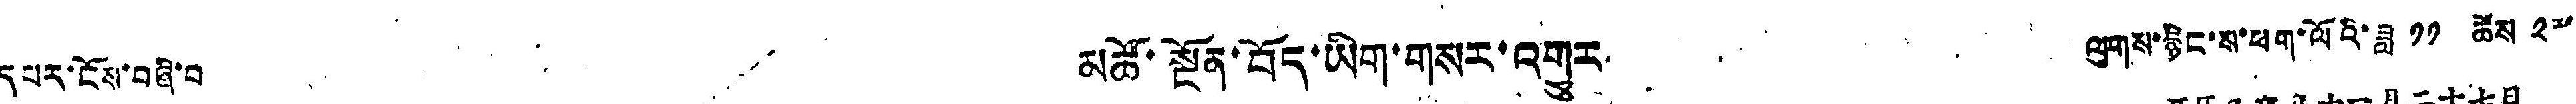དཔར་ངོས་བཞི་བ མཚོ་སྔོན་བོད་ཡིག་གསར་འགྱུར ལུགས་རྙིང་ས་ཕག་ལོའི་ཟླ ༡༡ ཚེས ༢༧
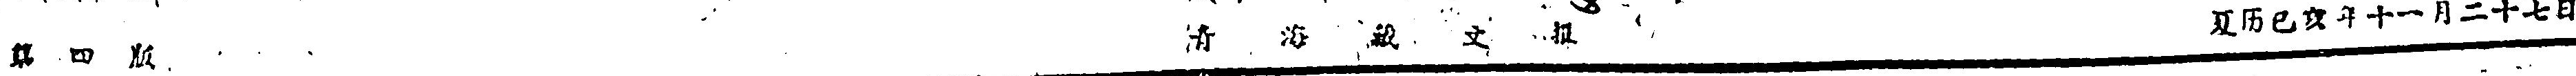第 四 版 青 海 藏 文 报 夏历己亥年十一月二十七日
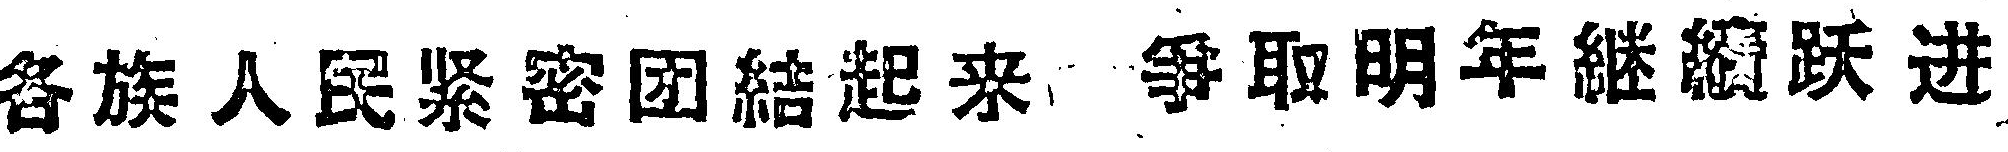各族人民緊密团結起来，爭取明年継續跃进
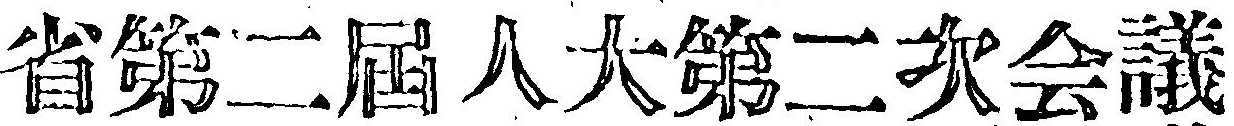省第二屆人大第二次会議
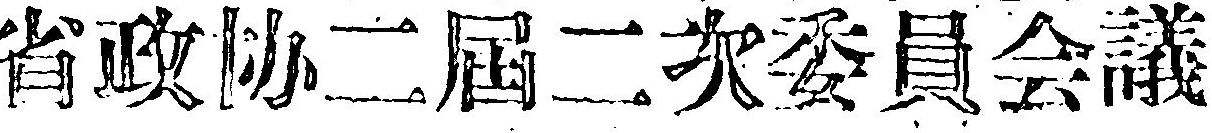省政協二屆二次委員会議
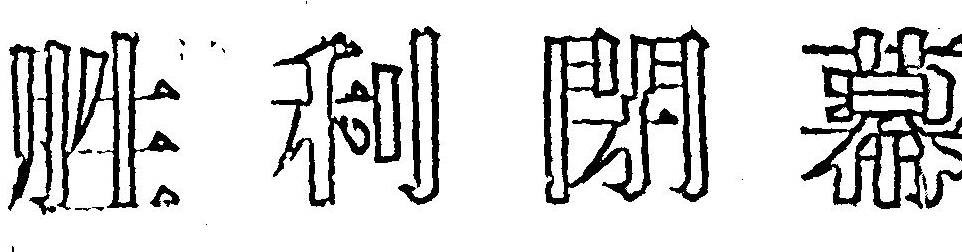胜 利 閉 幕
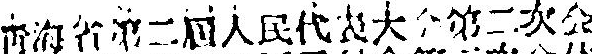靑海省第二屆人民代表大会第二次公
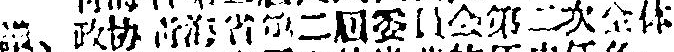議、政协靑海省第二屆委員会第二次全体
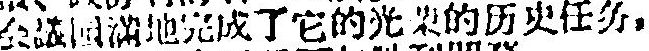会議圆滿地完成了它的光荣的历史任务，
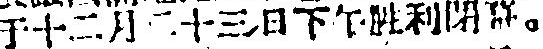于十二月二十三日下午胜利閉幕。
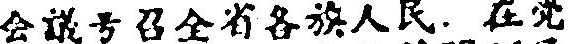会議号召全省各族人民，在党
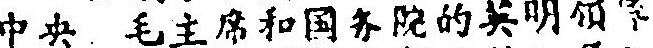中央、毛主席和国务院的英明領导
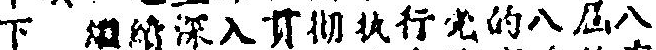下 継續深入貫彻执行党的八屆八
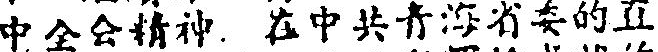中全会精神，在中共靑海省委的直
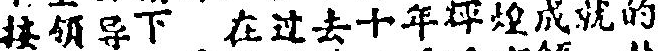接領导下 在过去十年輝煌成就的
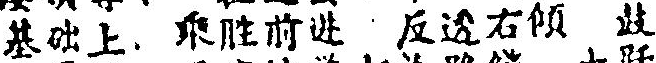基础上，乘胜前进 反透右傾 鼓
